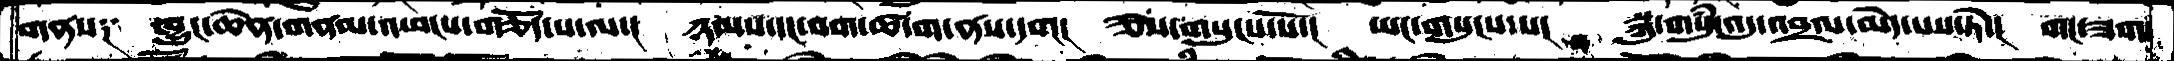གནས༑   ཁྱུང་ཆེན་གནམ་འཕངས་གཅོད་པ་ལ་།  ཉམས་དང་བག་ཚ་ག་ནས་དག།   ཅེས་གསུངས་སོ་།  ཡང་གསུངས་པ།   སྐུ་གསུམ་འདུ་འབྲལ་མེད་པས་ཏེ་།  གང་ཟག
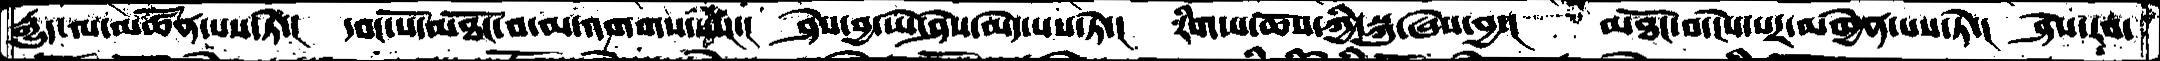རྒྱུད་ལ་མཚོན་པས་ཏེ་།   དབང་པོ་མཐོང་བ་མ་འགགས་སེཾས་།   ཤེས་བྱ་ཡེ་ཤེས་མེད་པས་ཏེ་།  རིག་པ་ཆོས་ཀྱི་སྐུ་ཞེས་བྱ་།  མཐོང་བ་ངེས་པར་མཁྱེན་པས་ཏེ་།  ཤེས་རབ་
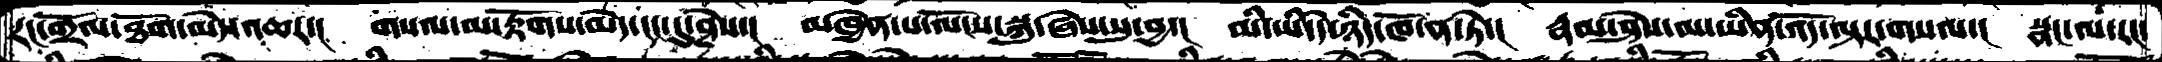རང་གྲོལ་ཐོག་མེད་འཆར་།   གསལ་ལ་རྟོགས་མེད་ངང་དུ་ཤེས་།  མཁྱེན་པ་ལོངས་སྐུ་ཞེས་སུ་བྱ་།  མི་ཡི་དེ་ཉིད་ཁོ་ན་ཏེ་།  རྣམ་ཤེས་མ་ཡིན་འོད་ལྟར་གསལ་།  སྣང་ལ་རང་
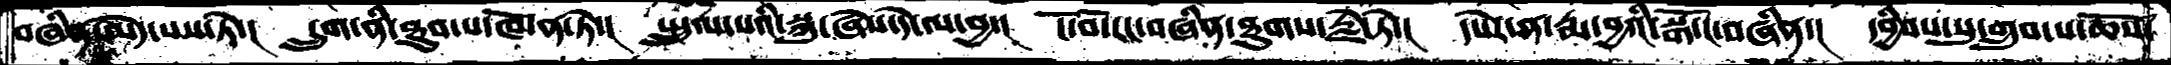བཞིན་མེད་པས་ཏེ་།  དྲུག་ནི་ཐུབ་པ་ཁོ་ན་ཏེ་།  སྤྲུལ་པའི་སྐུ་ཞེས་དེ་ལ་བྱ་།  ངོ་བོ་རང་བཞིན་ཐུགས་རྗེ་ཏེ་།  དཔེར་ན་རྨ་བྱའི་སྒོ་ང་བཞིན་།  དབྱིབས་སུ་གྲུབ་པ་ཆོས་
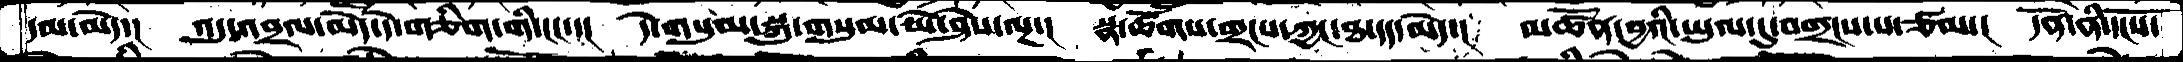དམ་མེད་།  འདུ་འབྲལ་མེད་དེ་གཅིག་གི་ངང་་།  དེ་གསུམ་སྐུ་གསུམ་ཡེ་ཤེས་ལྔ་།  སྣ་ཚོགས་གྲངས་ཀྱང་ཐ་དད་མེད་།  མཚོན་བྱའི་ཡུལ་དུ་བགྲངས་པ་ཙམ་།  དོན་ནི་དངོས་
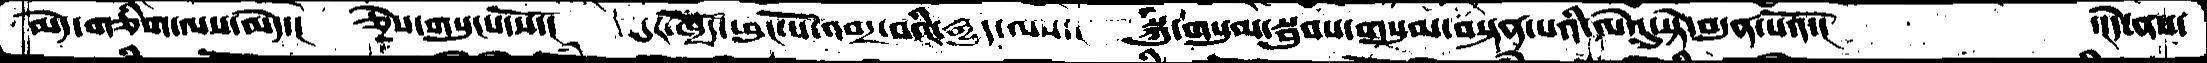མེད་གཅིག་ལས་མེད་།  ཅེས་གསུངས་སོ་།   དུར་ཁྲོད་ཕུང་པོ་འབར་བའི་རྒྱུད་ལས་།  སྐུ་གསུམ་སྦུབས་གསུམ་བསྟན་པའི་ལེའུ་སྟེ་བདུན་པའོ་།       ་།དེ་ནས་
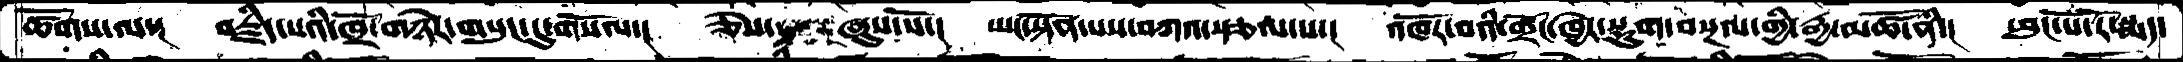ཚོགས་ལ་།  བརྗིད་པའི་ཁྲོ་གཉེར་གསུང་དུ་གསོལ་།  ཅེས་ཞུས་སོ་།  ཡང་སྟོན་པས་བཀའ་སྩལ་པ་།  འཁོར་བའི་གྲོང་ཁྱེར་སྡུག་བསྔལ་གྱི་རྒྱ་མཚོ་ནི་།  ཕུང་པོ་རོ་སྨད་
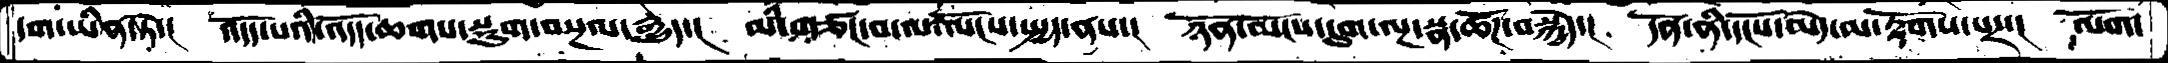དག་ཡིན་ཏེ་།  འདོད་པའི་འདོད་ཆགས་སྡུག་བསྔལ་རྒྱུད་།   མི་གཙང་བ་ལ་ལོངས་སྤྱོད་ནས་།  ཉོན་མོངས་དུག་ལྔ་སྣ་ཚོཌ་བསྐྱེད་།  དོན་ནི་དངོས་མེད་མ་རྟོགས་པར་།  ལོག་
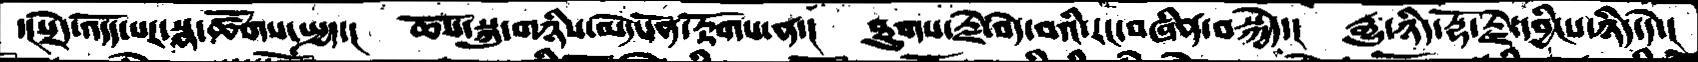་།སྲེད་འདོད་པར་སྣ་ཚོགས་སྤྱད་།   ཆོས་སྐུ་གཉིས་མེད་དོན་རྟོགས་ན་།  ཐུགས་རྗེ་བདེ་བའི་རང་བཞིན་བསྐྱེད་།  རྒྱུ་ཉིད་རྡོ་རྗེ་དབྱིངས་ཉིད་དེ་།
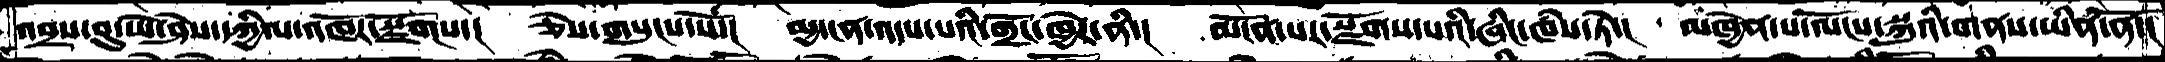འབྲས་བུ་ཡེ་ཤེས་དཀྱིལ་འཁོར་སྫོགས་།   ཅེས་གསུངས་སོ་།   མྱ་ངན་འདས་པའི་གྲོང་ཁྱེར་ནི་།  མངོན་པར་སྫོགས་པའི་ཞིང་ཁཾས་ཏེ་།  མཁྱེན་པ་ལོངས་སྐུའི་གནས་ཡིན་ནོ་།
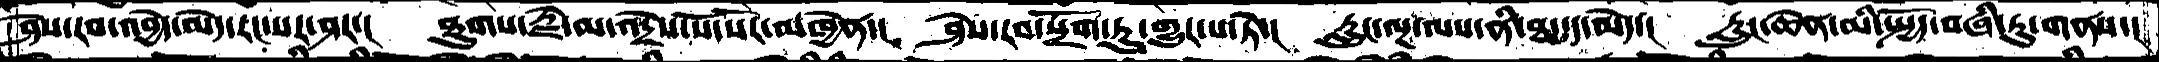ཤེས་རབ་འབྱེད་མེད་རང་སར་ཤར་།  ཐུགས་རྗེ་མ་འདྲེས་སོ་སོར་མཁྱེན་།  ཤེས་རབ་སྲོག་ཏུ་གྱུར་པ་ཏེ་།  རླུང་ལྔ་ལས་ནི་ཐ་དད་མེད་།  རླུང་ཆེན་མི་སྤྱོད་བཞི་རུ་གནས་།
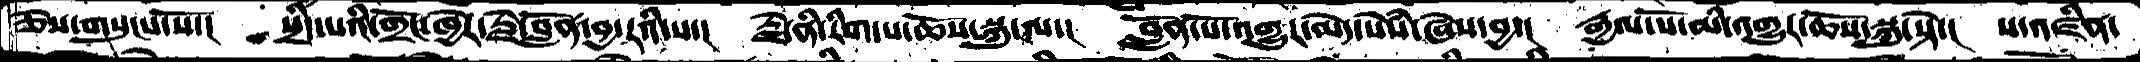ཅེས་གསུངས་སོ་།  སྲིད་པའི་གྲོང་ཁྱེར་རྗེ་བློན་བྱ་རའི་ས་།  རྗེ་ནི་རིག་པ་ཆོས་སྐུ་ལ་།  བློན་པོ་འགྱུར་མེད་སེཾས་ཞེས་བྱ་།  རྒྱལ་པོ་མི་འགྱུར་ཆོས་སྐུ་སྟེ་།  ས་འཛིན་
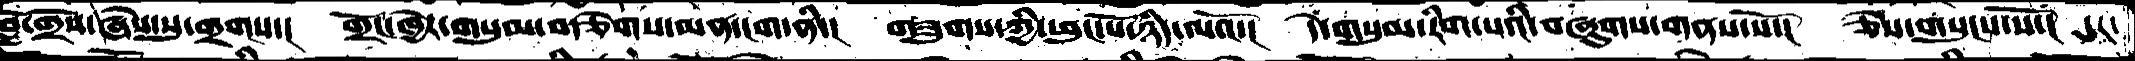བློ་གྲོས་ཞེས་སུ་གྲགས་།  གྲོང་ཁྱེར་གསུམ་བརྩེགས་མན་ངག་ནི་།  གཟུགས་ཀྱི་ཕུང་པོ་ཉིད་ལའོ་།  དེ་གསུམ་རིག་པའི་བཞུགས་གནས་སོ་།  ཅེས་གསུངས་སོ་།  དུར་
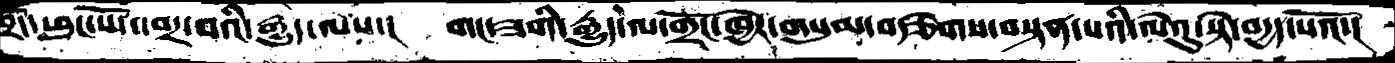བྲོད་ཕུང་པོ་བར་བའི་རྒྱུད་ལས་།  གང་ཟགི་རྒྱུད་ལ་གྲོང་ཁྱེར་གསུམ་བརྩེགས་བསྟན་པའི་ལེའུ་སྟེ་བདྱད་པའོ་།
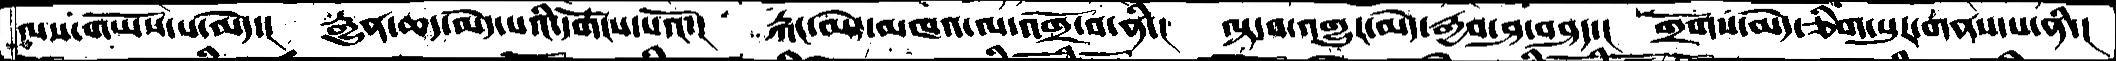ལས་གཡོས་པ་མེད་།   རྒྱུན་ཆད་མེད་པའི་དགོངས་པའོ་།  རྐང་མེད་མཁའ་ལ་འགྲོ་བ་ནི་།  ལྟ་བ་འགྱུར་མེད་རྒྱབ་ཤ་བཤད་།  གྲོགས་མེད་ཅིག་པུར་གནས་པ་ནི་།
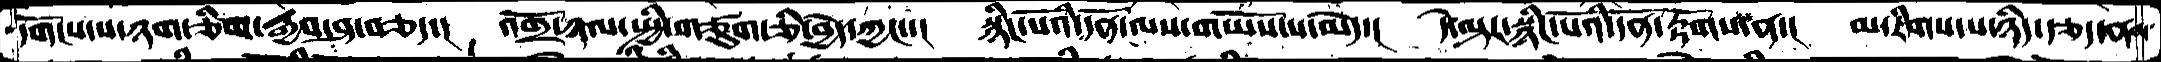དགོངས་པ་ཉག་ཅིག་རྒྱབ་ཤ་བཅད་།  འགྲོ་ཉལ་སྤྱི་གཙུག་ཅི་བྱེད་ཀྱང་་།  སྙིང་པོའི་དོན་ལས་གཡོས་པ་མེད་།  དེ་ལྟར་སྙིང་པོའི་དོན་རྟོགས་ན་།  མ་རིག་པ་ཉིད་རྩད་ནས
